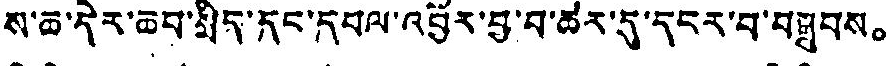ས་ཆ་དེར་ཆབ་སྲིད་དང་དཔལ་འབྱོར་བྱ་བ་ཚར་དུ་དངར་བ་བསྒྲུབས。
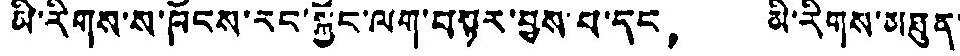མི་རིགས་ས་ཁོངས་རང་སྐྱོང་ལག་བསྟར་བྱས་པ་དང， མི་རིགས་མཐུན་
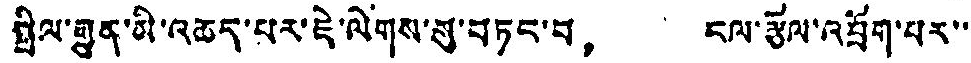སྤིལ་རྒྱུན་མི་འཆད་པར་ཇེ་ལེགས་སུ་བཏང་བ， ངལ་རྩོལ་འབྲོག་པར་་
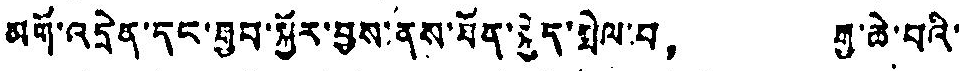མག་འདྲེན་དང་ཐུབ་སྐྱོར་བྱས་ནས་ཐོན་སྐྱེད་སྤེལ་བ， རྒྱ་ཆེ་བའི་
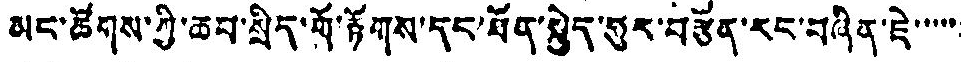མང་ཚོགས་ཀྱི་ཆབ་སྲིད་གོ་རྟོགས་དང་ཐོན་སྐྱེད་ཧུར་བརྩོན་རང་བཞིན་ཇེ་་་་་་
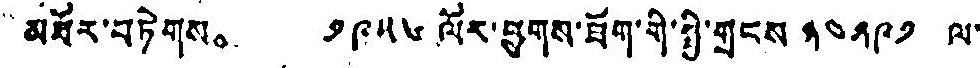མཐོར་བཏེགས。 ༡༩༥༦ ལོར་ཕྱུགས་ཐོག་གི་སྤྱི་གྲངས ༢༤༢༩༡ ལ་
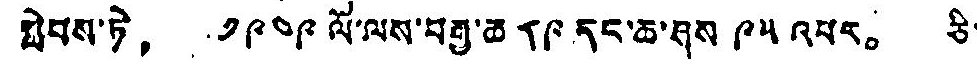སླེབས་ཏེ， ༡༩༤༩ ལོ་ལས་བརྒྱ་ཆ ༨༩ དང་ཆ་ཤས ༩༥ འཔར。 ཅི་
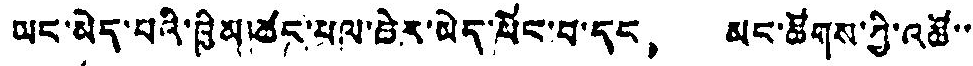ཡང་མེད་པའི་ཁྱིམ་ཚང་པལ་ཁེར་མེད་པོང་བ་དང， མང་ཚོགས་ཀྱི་འཚོ་་་
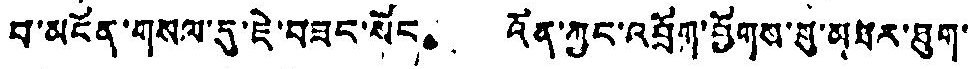བ་མངོན་གསལ་དུ་ཇེ་བཟང་སོང， འོན་ཀྱང་འབྲོག་ཕྱོགས་སུ་མཐར་ཐུག་
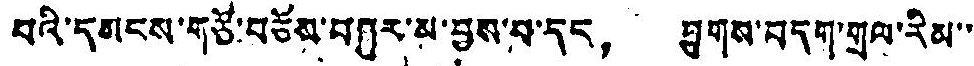པའི་དམངས་གཙོ་བཅོས་བཀུར་མ་བྱས་པ་དང， ཕྱུགས་བདག་གྲལ་རིམ་་
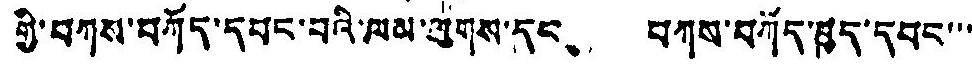གྱི་བཀས་བཀོད་དབང་བའི་ལམ་ཕུགས་དང、 བཀས་བཀོད་ཁྱད་དབང་་་་
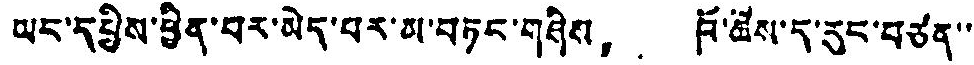ཡང་དཔྱིས་ཕྱིན་པར་མེད་པར་མ་བཏང་གཤིས， ཁོ་ཚོས་ད་རུང་བཙན་་
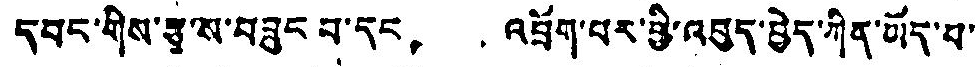དབང་གིས་རྩྭ་ས་བཟུང བ་དང， འབྲོག་པར་ཕྱི་འབུད་བྱེད་ཀིན་ཡོད་པ་
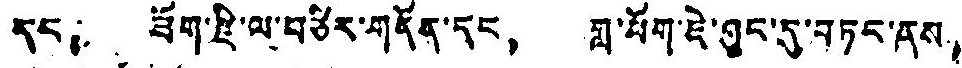དང， ཐོག་རྫི་ལ་བཙིར་གནོན་དང， གླ་ཕོག་ཇེ་ཉུང་དུ་བཏང་ནས，
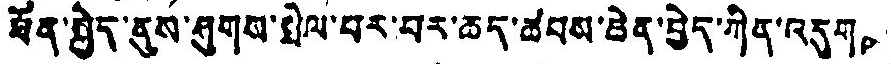ཐོན་སྐྱེད་ནུས་ཤུགས་སྤེལ་བར་བར་ཆད་ཚབས་ཆེན་བྱེད་ཀིན་འདུག。
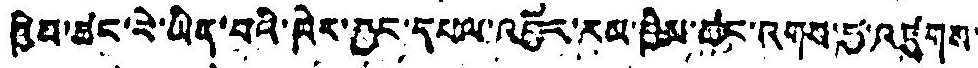ཁྱིམ་ཚང་རེ་ཡིད་པའི་ཁེར་བྱང་དཔལ་འབྱོར་རམ་ཁྱིམ་ཚང་འགབ་དུ་འཛུགས་
